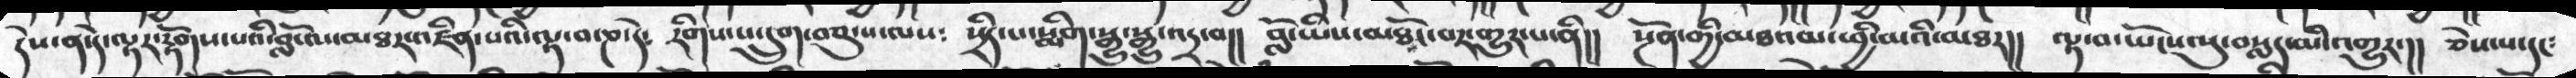དེས་ན་དེ་ལྟར་རྟོགས་པའི་བློ་ལ་མཐར་འཛིན་པའི་ལྟ་བ་ཎ་དེ༴  རིགས་པ་དྲུག་བཅུ་པ་ལས༴  སྲིད་པ་སྨིག་སྒྱུ་སྒྱུ་འདྲ་བ།།  བློ་ཡིས་མཐོང་བར་གྱུར་པ་ནི།།  སྔོན་གྱི་མཐར་ཕྱི་མའི་མཐར།།  ལྟ་བ་ཡོངས་སུ་བསླད་མི་འགྲུར་།།  ཅེས་པ་དང༴
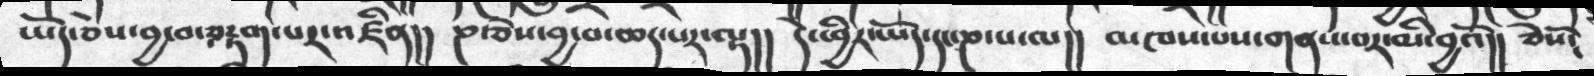ཡོད་ཅེས་བྱ་བ་བརྟག་པར་འཇིན།།  ཎ་ཅེས་བྱ་བ་ཆད་པར་ལྟ།།  དེ་ཕྱིར་ཡོད་དང་ཎ་པ་ལ།།  མཁས་པས་གནས་བར་མི་བྱའོ།། ཅེསོ༴
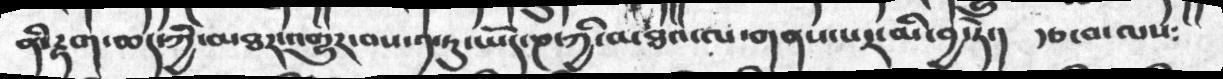ནི་རྟག་ཆད་ཀྱི་མཐར་འགྱུར་བས་༡་ཏུ་ཡོད་ཎ་ཀྱི་མཐའ་ལ་གནས་པར་མི་བྱ་ཏེ་།  རྩ་བ་ལས༴
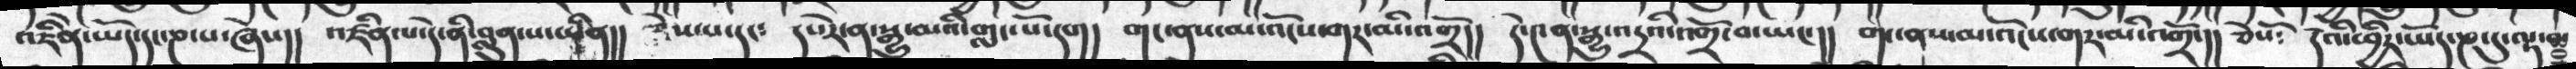འཇིེན་ཡོད་དང་ཎ་པ་ཞེས།།  འཛིན་པ་དེ་ནི་བླུན་པ་ཡིན།།  ཅེས་པ་དང༴  དཔེར་ན་སྒྱུ་མའི་གླང་པོ་དག།  གང་ནས་མ་འོངས་གར་མི་འགྲོ།།  དེ་༤ན་སྒྱུ་འདྲའི་འགྲོ་བ་ཡང་།།  གང་ནས་མ་འོངས་གར་མ་འགྲོ་།། ཅེསོ༴  དེའི་ཕྱིར་ཡོད་ཎ་དུ་ལྟ་བ་
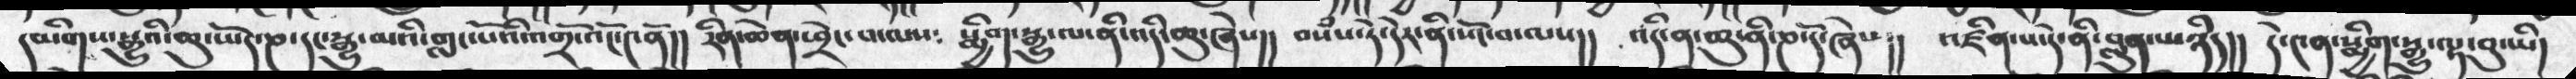དམིགས་སྒྱུའི་ཆུ་ཡོར་ཎ་དང་སྒྱུ་མའི་གླང་པོའི་འགྲོ་འོང་༤ནོ།།  རིན་ཆེན་ཕྲེང་བ་ལས༴   སྨྱིག་སྒྱུ་ལ་ནི་འདི་ཆུ་ཞེས།།  བསཾས་ཏེ་དེར་ནི་སོང་ལས།།  འདི་ན་ཆུ་ནི་ཎ་དོ་ཞེས།།   འཛིན་པ་དེ་ནི་བླུན་པ་ཉིད།།  དེ་༤ན་སྨྱིག་སྒྱུ་ལྟ་བུ་ཡི།
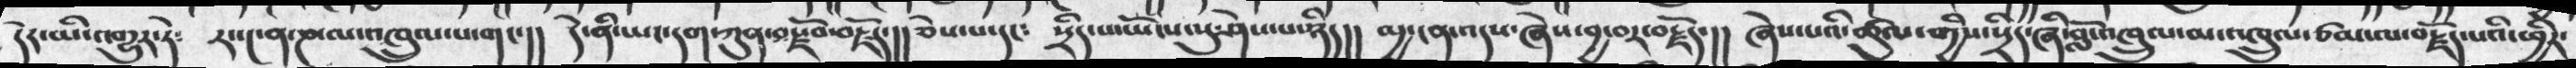དེར་མི་འགྱུར་ཏེ༴   རང་༤ན་ཎ་ལ་འཁྲུལ་པ་གང་།།  དེ་ནི་ཡང་དག་ཀུན་རྫོབ་བརྗོད་།།  ཅེས་པ་དང༴  སྲིད་པ་ཡོངས་སུ་ཤེས་པ་ཉི།།།  མྱ་ངན་འདས་ཞེས་བྱ་བར་བརྗོད་།།   ཞེས་པའི་ཚུལ་གྱིས་སྲིད་ཞི་བློ་འཁྲུལ་མ་འཁྲུལ་ཙམ་ལ་བརྗོད་པའི་ཕྱིར་
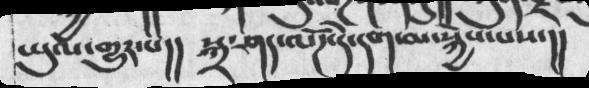ཡུལ་གྱུར་པ།།  སྐྲ་ཤད་ལོཌ་དེ་དག་མ་སྐྱེས་པས་།།
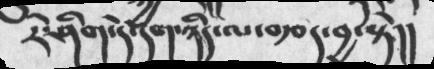རེ་ཤིག་དེ་དག་ཉིད་ལ་བརྩད་བྱ་སྟེ།།
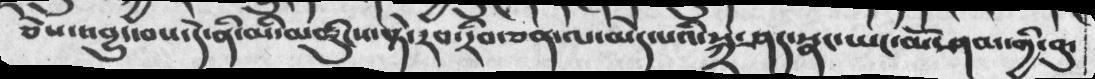ཅེས་འབྱུང་བས་དེ་ནི་མི་མཚུངས་སྟེ་རབ་རིབ་ཅན་ལ་མེད་པའི་སྐྲ་ཤད་སྣང་ཡང་མོ་ཤམ་གྱི་བུ་
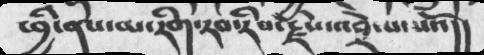ཕྱི་ནས་མ་རིག་རབ་རིབ་རྗེས་འབྲེལ་པའོ།།
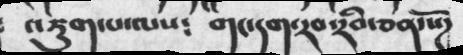འཇུག་པ་ལས༴   གང་དག་རབ་རིབ་ཅན་སོཌ
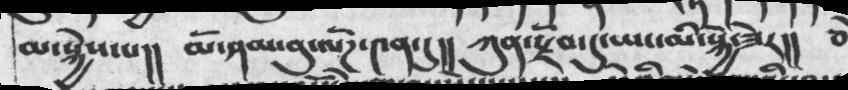མ་སྐྱེས་པ།།   མོ་ཤམ་བུ་ལོཌ་༤ན་དུ།།  ཀུན་རྫོབ་དུ་ཡང་མི་སྐྱེ་ཟེར།།
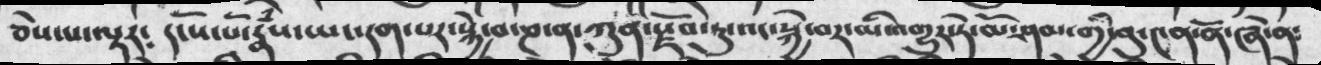ཅེས་པ་ལྟར༴  དངོས་པོ་རྣཾས་ཡང་དག་པར་སྐྱེ་བ་ཎ་བ་ཀུན་རྫོབ་ཏུ་འང་སྐྱེ་བར་མི་འགྱུར་ཏེ་མོ་ཤམ་གྱི་བུ་༤ན་ནོ་ཞེ་ན༴
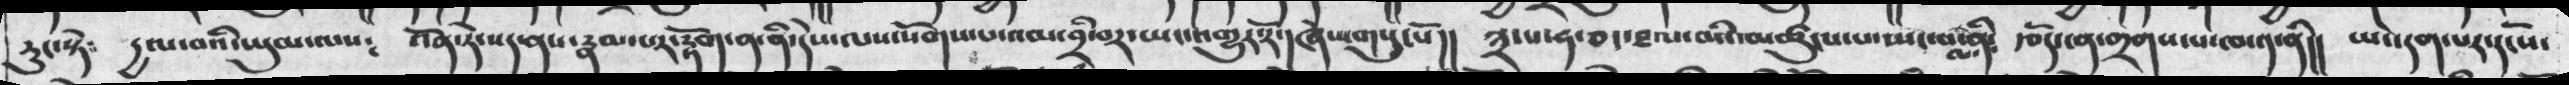རུང་སྟེ༴  དྱལ་བའི་ཡུམ་ལས༴  འོན་ཏེ་སད་ནས་རྣམ་པར་རྟོག་ན་ནི་དེས་ལས་ལོག་པ་འམ་བྲི་བར་ཡང་འགྱུར་རོ་།ཞེས་གསུངསོ།།  ༣་པ་ཧ་ཅང་ཐལ་བའི་མཚུངས་པ་ཡང་པ་ནི༴  རྩོད་ན་གྲགས་པ་ཁ་༡་ནི།།  ཡང་དག་པར་དངོས་
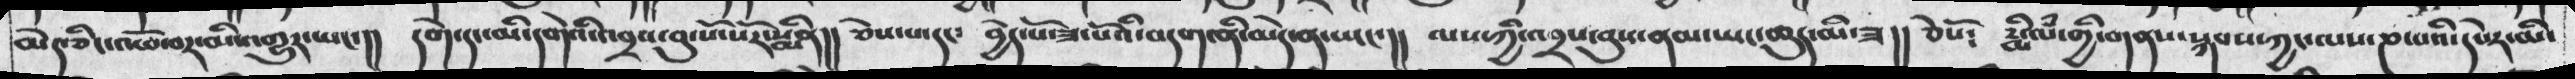མེད་ཅིང་འཕོ་བར་མི་འགྱུར་ཡང་།།  དགེ་དང་མི་དགེའི་འབྲས་བུ་སོ་སོར་སྨིན།།  ཅེས་པ་དང༴   བྱེད་པོ་ཟ་པོའི་བདག་ནི་མེད་ཡང་།།  ལས་ཀྱི་འབྲས་བུས་ནམ་ཡང་ཆུར་མི་ཟ།།  ཅེསོ༴   རྨི་ལཾ་གྱི་གནས་སྐབས་ཀྱང་ལས་ཎ་པའི་དཔེར་མི་
